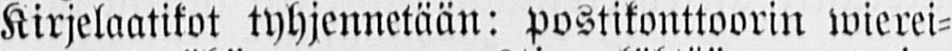Kirjelaatikot tyhjennetään: postikonttoorin wierei-
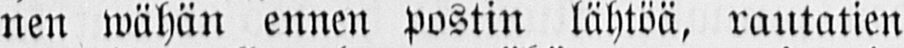nen wähän ennen postin lähtöä, rautatien
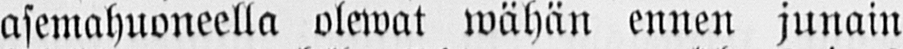asemahuoneella olewat wähän ennen junain
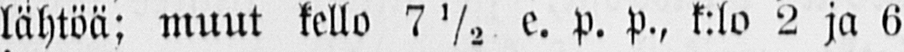lähtöä; muut kello 7½ e. p. p., k:lo 2 ja 6
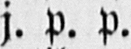j. p. p.
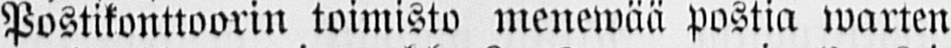Postikonttoorin toimisto menewää postia warten
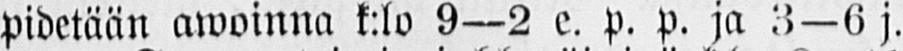pidetään awoinna k:lo 9—2 e. p. p. ja 3—6 j.
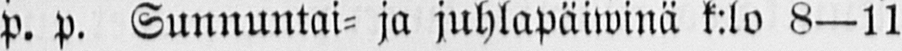p. p. Sunnuntai- ja juhlapäiwinä k:lo 8—11
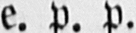e. P. P.
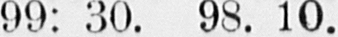99: 30. 98. 10.
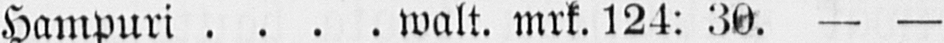Hampuri Walt. mrt. 124: 30. — —
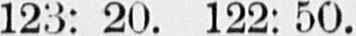123: 20. 122: 50.
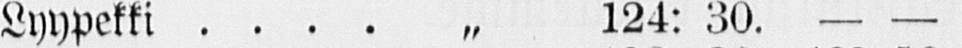Lyypekki ˶ 124: 30. — —
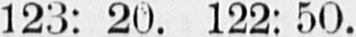123: 20. 122: 50.
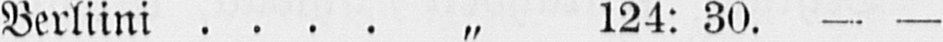Berliini „ 124: 30. — —
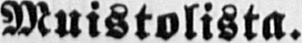Muistolista.
